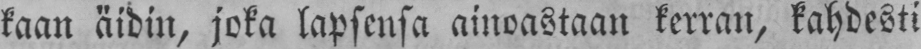kaan äidin, joka lapsensa ainoastaan kerran, kahdesti
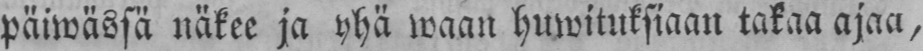päiwässä näkee ja yhä waan huwituksiaan takaa ajaa,
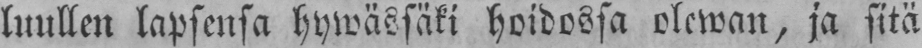luullen lapsensa hywässäki hoidossa olewan, ja sitä
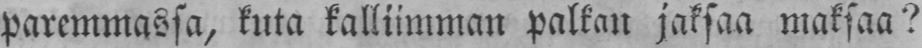paremmassa, kuta kalliimman palkan jaksaa maksaa?
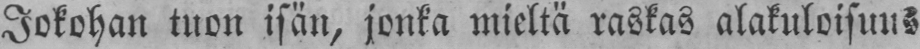Jokohan tuon isän, jonka mieltä raskas alakuloisuus
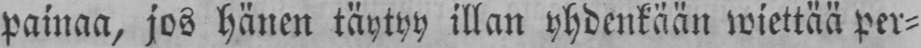painaa, jos hänen täytyy illan yhdenkään wiettää per-
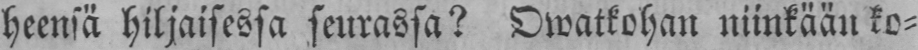heensä hiljaisessa seurassa? Owatkohan niinkään ko-
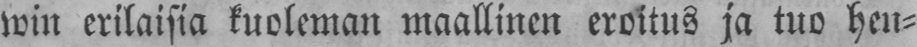win erilaisia kuoleman maallinen eroitus ja tuo hen-
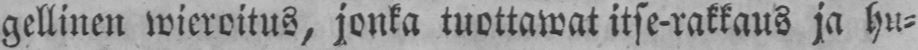gellinen wieroitus, jonka tuottawat itse-rakkaus ja hu-
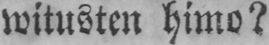witusten himo?
